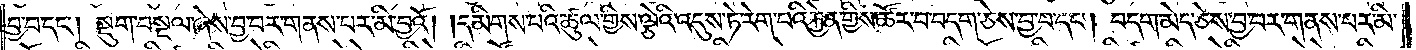བྱ་བ་དང༌། སྡུག་བསྔལ་ཞེས་བྱ་བར་གནས་པར་མི་བྱའོ། །དམིགས་པའི་ཚུལ་གྱིས་ལྕེའི་འདུས་ཏེ་རེག་པའི་རྐྱེན་གྱིས་ཚོར་བ་བདག་ཅེས་བྱ་བ་དང༌། བདག་མེད་ཅེས་བྱ་བར་གནས་པར་མི་
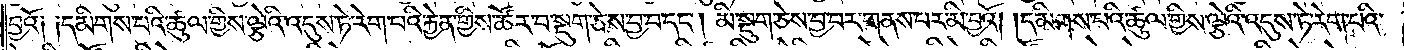བྱའོ༏ ༏དམིགས་པའི་ཚུལ་གྱིས་ལྕེའི་འདུས་ཏེ་རེག་པའི་རྐྱེན་གྱིས་ཚོར་བ་སྡུག་ཅེས་བྱ་བ་དང༌། མི་སྡུག་ཅེས་བྱ་བར་གནས་པར་མི་བྱའོ། དམིགས་པའི་ཚུལ་གྱིས་ལྕེའི་འདུས་ཏེ་རེག་པའི་
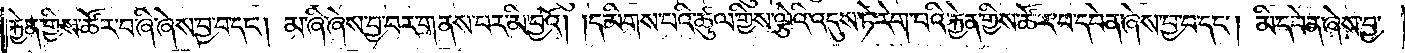རྐྱེན་གྱིས་ཚོར་བ་ཞི་ཞེས་བྱ་བ་དང༌། མ་ཞི་ཞེས་བྱ་བར་གནས་པར་མི་བྱའོ། །དམིགས་པའི་ཚུལ་གྱིས་ལྕེའི་འདུས་ཏེ་རེག་པའི་རྐྱེན་གྱིས་ཚོར་བ་དབེན་ཞེས་བྱ་བ་དང༌། མི་དབེན་ཞེས་བྱ་
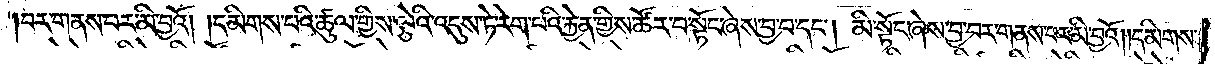བར་གནས་པར་མི་བྱའོ། །དམིགས་པའི་ཚུལ་གྱིས་ལྕེའི་འདུས་ཏེ་རེག་པའི་རྐྱེན་གྱིས་ཚོར་བ་སྟོང་ཞེས་བྱ་བ་དང༌། མི་སྟོང་ཞེས་བྱ་བར་གནས་པར་མི་བྱའོ། །དམིགས་
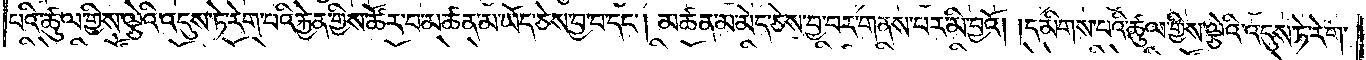པའི་ཚུལ་གྱིས་ལྕེའི་འདུས་ཏེ་རེག་པའི་རྐྱེན་གྱིས་ཚོར་བ་མཚན་མ་ཡོད་ཅེས་བྱ་བ་དང༌། མཚན་མ་མེད་ཅེས་བྱ་བར་གནས་པར་མི་བྱའོ། །དམིགས་པའི་ཚུལ་གྱིས་ལྕེའི་འདུས་ཏེ་རེག་
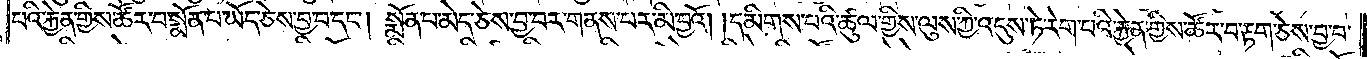པའི་རྐྱེན་གྱིས་ཚོར་བ་སྨོན་པ་ཡོད་ཅེས་བྱ་བ་དང༌། སྨོན་པ་མེད་ཅེས་བྱ་བར་གནས་པར་མི་བྱའོ། །དམིགས་པའི་ཚུལ་གྱིས་ལུས་ཀྱི་འདུས་ཏེ་རེག་པའི་རྐྱེན་གྱིས་ཚོར་བ་རྟག་ཅེས་བྱ་བ་
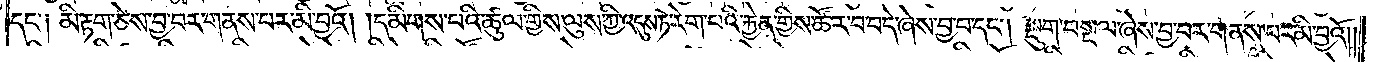དང༌། མི་རྟག་ཅེས་བྱ་བར་གནས་པར་མི་བྱའོ། །དམིགས་པའི་ཚུལ་གྱིས་ལུས་ཀྱི་འདུས་ཏེ་རེག་པའི་རྐྱེན་གྱིས་ཚོར་བ་བདེ་ཞེས་བྱ་བ་དང༌། སྡུག་བསྔལ་ཞེས་བྱ་བར་གནས་པར་མི་བྱའོ། །
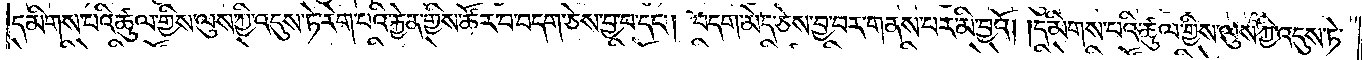དམིགས་པའི་ཚུལ་གྱིས་ལུས་ཀྱི་འདུས་ཏེ་རེག་པའི་རྐྱེན་གྱིས་ཚོར་བ་བདག་ཅེས་བྱ་བ་དང༌། བདག་མེད་ཅེས་བྱ་བར་གནས་པར་མི་བྱའོ། །དམིགས་པའི་ཚུལ་གྱིས་ལུས་ཀྱི་འདུས་ཏེ་
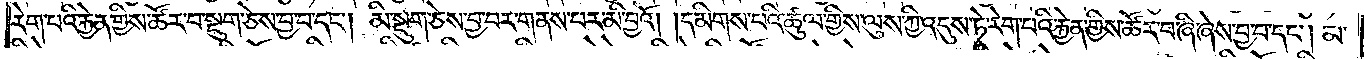རེག་པའི་རྐྱེན་གྱིས་ཚོར་བ་སྡུག་ཅེས་བྱ་བ་དང༌། མི་སྡུག་ཅེས་བྱ་བར་གནས་པར་མི་བྱའོ། །དམིགས་པའི་ཚུལ་གྱིས་ལུས་ཀྱི་འདུས་ཏེ་རེག་པའི་རྐྱེན་གྱིས་ཚོར་བ་ཞི་ཞེས་བྱ་བ་དང༌། མ་
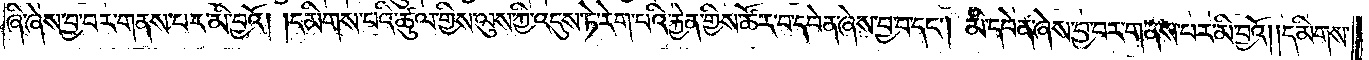ཞི་ཞེས་བྱ་བར་གནས་པར་མི་བྱའོ། །དམིགས་པའི་ཚུལ་གྱིས་ལུས་ཀྱི་འདུས་ཏེ་རེག་པའི་རྐྱེན་གྱིས་ཚོར་བ་དབེན་ཞེས་བྱ་བ་དང༌། མི་དབེན་ཞེས་བྱ་བར་གནས་པར་མི་བྱའོ། །དམིགས་
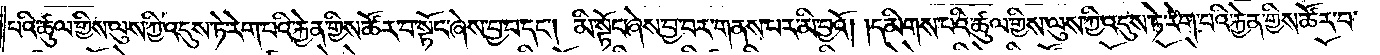པའི་ཚུལ་གྱིས་ལུས་ཀྱི་འདུས་ཏེ་རེག་པའི་རྐྱེན་གྱིས་ཚོར་བ་སྟོང་ཞེས་བྱ་བ་དང༌། མི་སྟོང་ཞེས་བྱ་བར་གནས་པར་མི་བྱའོ། །དམིགས་པའི་ཚུལ་གྱིས་ལུས་ཀྱི་འདུས་ཏེ་རེག་པའི་རྐྱེན་གྱིས་ཚོར་བ་
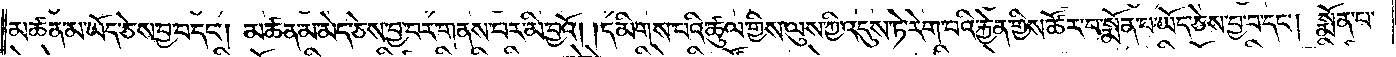མཚན་མ་ཡོད་ཅེས་བྱ་བ་དང༌། མཚན་མ་མེད་ཅེས་བྱ་བར་གནས་བར་མི་བྱའོ། །དམིགས་པའི་ཚུལ་གྱིས་ལུས་ཀྱི་འདུས་ཏེ་རེག་པའི་རྐྱེན་གྱིས་ཚོར་བ་སྨོན་པ་ཡོད་ཅེས་བྱ་བ་དང༌། སྨོན་པ་
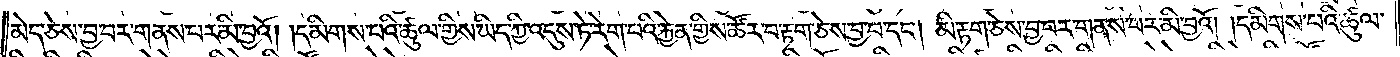མེད་ཅེས་བྱ་བར་གནས་པར་མི་བྱའོ། །དམིགས་པའི་ཚུལ་གྱིས་ཡིད་ཀྱི་འདུས་ཏེ་རེག་པའི་རྐྱེན་གྱིས་ཚོར་བ་རྟག་ཅེས་བྱ་བ་དང༌། མི་རྟག་ཅེས་བྱ་བར་གནས་པར་མི་བྱའོ། །དམིགས་པའི་ཚུལ་
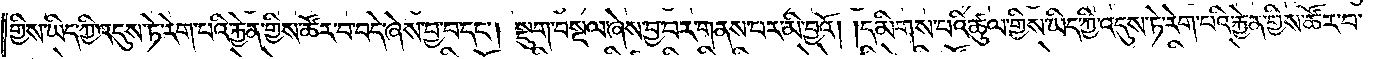གྱིས་ཡིད་ཀྱི་འདུས་ཏེ་རེག་པའི་རྐྱེན་གྱིས་ཚོར་བ་བདེ་ཞེས་བྱ་བ་དང༌། སྡུག་བསྔལ་ཞེས་བྱ་བར་གནས་པར་མི་བྱའོ། །དམིགས་པའི་ཚུལ་གྱིས་ཡིད་ཀྱི་འདུས་ཏེ་རེག་པའི་རྐྱེན་གྱིས་ཚོར་བ་
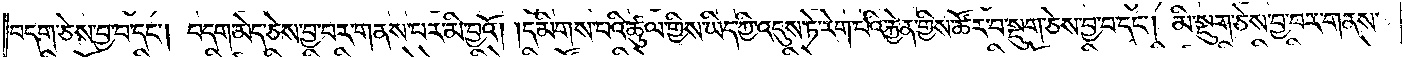བདག་ཅེས་བྱ་བ་དང༌། བདག་མེད་ཅེས་བྱ་བར་གནས་པར་མི་བྱའོ། །དམིགས་པའི་ཚུལ་གྱིས་ཡིད་ཀྱི་འདུས་ཏེ་རེག་པའི་རྐྱེན་གྱིས་ཚོར་བ་སྡུག་ཅེས་བྱ་བ་དང༌། མི་སྡུག་ཅེས་བྱ་བར་གནས་
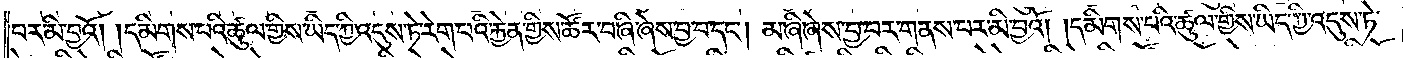པར་མི་བྱའོ། །དམིགས་པའི་ཚུལ་གྱིས་ཡིད་ཀྱི་འདུས་ཏེ་རེག་པའི་རྐྱེན་གྱིས་ཚོར་བ་ཞི་ཞེས་བྱ་བ་དང༌། མ་ཞི་ཞེས་བྱ་བར་གནས་པར་མི་བྱའོ། །དམིགས་པའི་ཚུལ་གྱིས་ཡིད་ཀྱི་འདུས་ཏེ་
